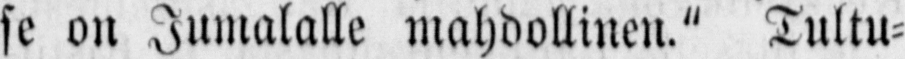se on Jumalalle mahdollinen." Tultu-
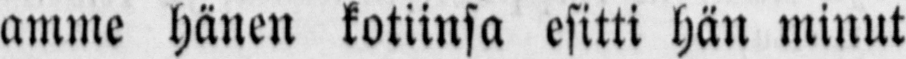amme hänen kotiinsa esitti hän minut
